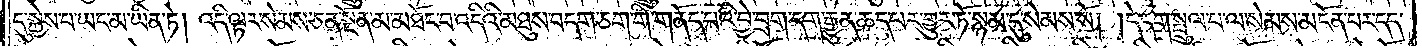དུ་སྐྱེས་པ་ཡང་མ་ཡིན་ཏེ། འདི་ལྟར་སེམས་ཅན་སྔོན་མ་མཐོང་བ་འདིའི་མཐུས་བདག་ཅག་གི་གནོད་པའི་བྱེ་བྲག་དག་རྒྱུན་ཆད་པར་གྱུར་ཏོ་སྙམ་དུ་སེམས་སོ། །དེ་དག་སྤྲུལ་པ་ལ་སེམས་མངོན་པར་དད་
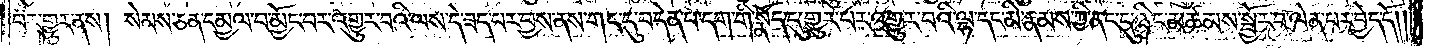པར་གྱུར་ནས། སེམས་ཅན་དམྱལ་བ་མྱོང་བར་འགྱུར་བའི་ལས་དེ་ཟད་པར་བྱས་ནས་གང་དུ་བདེན་པ་དག་གི་སྣོད་དུ་གྱུར་པར་འགྱུར་བའི་ལྷ་དང་མི་རྣམས་ཀྱི་ནང་དུ་ཉིང་མཚམས་སྦྱོར་བ་ལེན་པར་བྱེད་དོ༎
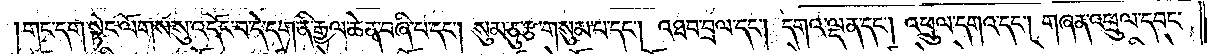གང་དག་སྟེང་ལོགས་སུ་འདོང་བ་དེ་དག་ནི་རྒྱལ་ཆེན་བཞི་པ་དང༌། སུམ་ཅུ་རྩ་གསུམ་པ་དང༌། འཐབ་བྲལ་དང༌། དགའ་ལྡན་དང༌། འཕྲུལ་དགའ་དང༌། གཞན་འཕྲུལ་དབང་
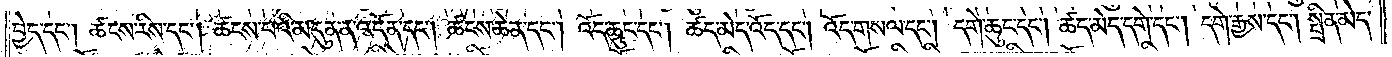བྱེད་དང༌། ཚངས་རིས་དང༌། ཚངས་པའི་མདུན་ན་འདོན་དང༌། ཚངས་ཆེན་དང༌། འོད་ཆུང་དང༌། ཚད་མེད་འོད་དང༌། འོད་གསལ་དང༌། དགེ་ཆུང་དང༌། ཚད་མེད་དགེ་དང༌། དགེ་རྒྱས་དང༌། སྤྲིན་མེད་
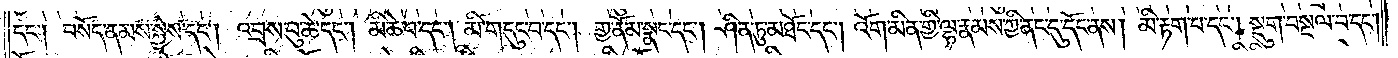དང༌། བསོད་ནམས་སྐྱེས་དང༌། འབྲས་བུ་ཆེ་དང༌། མི་ཆེ་བ་དང༌། མི་གདུང་བ་དང༌། གྱ་ནོམ་སྣང་དང༌། ཤིན་ཏུ་མཐོང་དང༌། འོག་མིན་གྱི་ལྷ་རྣམས་ཀྱི་ནང་དུ་དོང་ནས། མི་རྟག་པ་དང༌། སྡུག་བསྔལ་བ་དང༌།
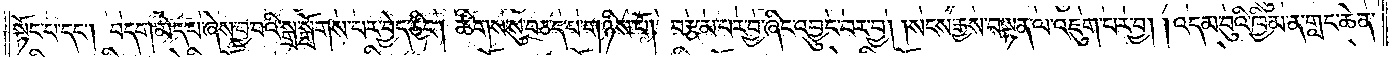སྟོང་པ་དང༌། བདག་མེད་པ་ཞེས་བྱ་བའི་སྒྲ་སྒྲོགས་པར་བྱེད་ཅིང༌། ཚིགས་སུ་བཅད་པ་གཉིས་པོ། བརྩམ་པར་བྱ་ཞིང་འབྱུང་བར་བྱ། །སངས་རྒྱས་བསྟན་ལ་འཇུག་པར་བྱ། །འདམ་བུའི་ཁྱིམ་ན་གླང་ཆེན་
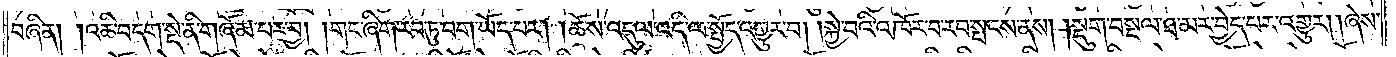བཞིན། །འཆི་བདག་སྡེ་ནི་གཞོམ་པར་བྱ། །གང་ཞིག་རབ་ཏུ་བག་ཡོད་པར། །ཆོས་འདུལ་འདི་ལ་སྤྱོད་འགྱུར་བ། །སྐྱེ་བའི་འཁོར་བ་རབ་སྤངས་ནས། །སྡུག་བསྔལ་ཐ་མར་བྱེད་པར་འགྱུར། །ཞེས་
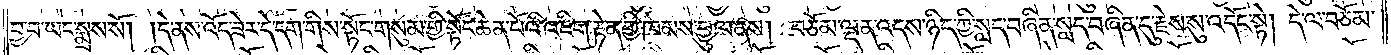བྱ་བ་ཡང་སྨྲས་སོ། །དེ་ནས་འོད་ཟེར་དེ་དག་གིས་སྟོང་གསུམ་གྱི་སྟོང་ཆེན་པོའི་འཇིག་རྟེན་གྱི་ཁམས་བྱུལ་ནས། བཅོམ་ལྡན་འདས་ཉིད་ཀྱི་སླད་བཞིན་སླད་བཞིན་དུ་རྗེས་སུ་འདོང་སྟེ། དེ་ལ་བཅོམ་
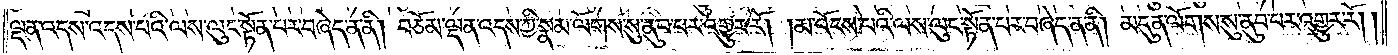ལྡན་འདས་འདས་པའི་ལས་ལུང་སྟོན་པར་བཞེད་ན་ནི། བཅོམ་ལྡན་འདས་ཀྱི་སྣམ་ལོགས་སུ་ནུབ་པར་འགྱུར་རོ། །མ་འོངས་པའི་ལས་ལུང་སྟོན་པར་བཞེད་ན་ནི། མདུན་ལོགས་སུ་ནུབ་པར་འགྱུར་རོ། །
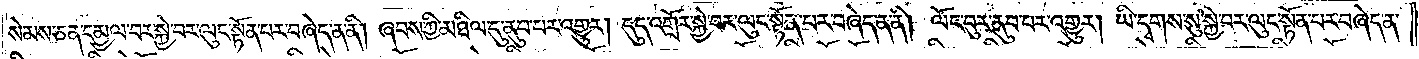སེམས་ཅན་དམྱལ་བར་སྐྱེ་བར་ལུང་སྟོན་པར་བཞེད་ན་ནི། ཞབས་ཀྱི་མཐིལ་དུ་ནུབ་པར་འགྱུར། དུད་འགྲོར་སྐྱེ་བར་ལུང་སྟོན་པར་བཞེད་ན་ནི། ལོང་བུར་ནུབ་པར་འགྱུར། ཡི་དྭགས་སུ་སྐྱེ་བར་ལུང་སྟོན་པར་བཞེད་ན་
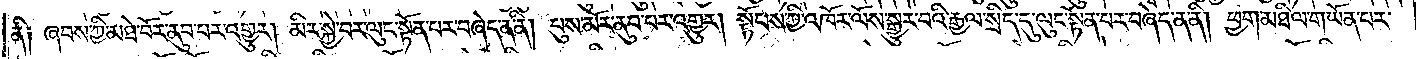ནི༑ ཞབས་ཀྱི་མཐེ་བོར་ནུབ་པར་འགྱུར། མིར་སྐྱེ་བར་ལུང་སྟོན་པར་བཞེད་ན་ནི། པུས་མོར་ནུབ་པར་འགྱུར། སྟོབས་ཀྱི་འཁོར་ལོས་སྒྱུར་བའི་རྒྱལ་སྲིད་དུ་ལུང་སྟོན་པར་བཞེད་ན་ནི། ཕྱག་མཐིལ་གཡོན་པར་
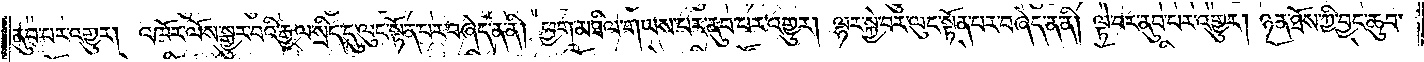ནུབ་པར་འགྱུར། འཁོར་ལོས་སྒྱུར་བའི་རྒྱལ་སྲིད་དུ་ལུང་སྟོན་པར་བཞེད་ན་ནི། ཕྱག་མཐིལ་གཡས་པར་ནུབ་པར་འགྱུར། ལྷར་སྐྱེ་བར་ལུང་སྟོན་པར་བཞེད་ན་ནི། ལྟེ་བར་ནུབ་པར་འགྱུར། ཉན་ཐོས་ཀྱི་བྱང་ཆུབ་
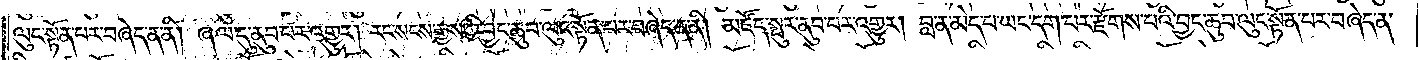ལུང་སྟོན་པར་བཞེད་ན་ནི། ཞལ་དུ་ནུབ་པར་འགྱུར། རང་སངས་རྒྱས་ཀྱི་བྱང་ཆུབ་ལུང་སྟོན་པར་བཞེད་ན་ནི། མཛོད་སྤུར་ནུབ་པར་འགྱུར། བླ་ན་མེད་པ་ཡང་དག་པར་རྫོགས་པའི་བྱང་ཆུབ་ལུང་སྟོན་པར་བཞེད་ན་
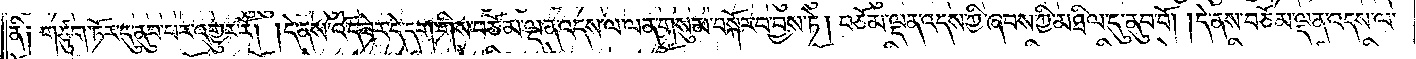ནི༑ གཙུག་ཏོར་དུ་ནུབ་པར་འགྱུར་རོ། །དེ་ནས་འོད་ཟེར་དེ་དག་གིས་བཅོམ་ལྡན་འདས་ལ་ལན་གསུམ་བསྐོར་བ་བྱས་ཏེ། བཅོམ་ལྡན་འདས་ཀྱི་ཞབས་ཀྱི་མཐིལ་དུ་ནུབ་བོ། །དེ་ནས་བཅོམ་ལྡན་འདས་ལ་
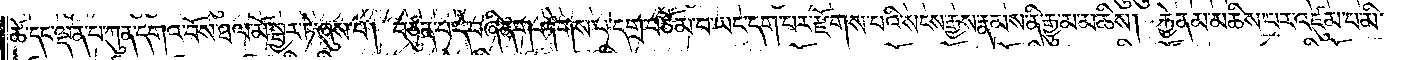ཚེ་དང་ལྡན་པ་ཀུན་དགའ་བོས་ཐལ་མོ་སྦྱར་ཏེ་ཞུས་པ། བཙུན་པ་དེ་བཞིན་གཤེགས་པ་དགྲ་བཅོམ་པ་ཡང་དག་པར་རྫོགས་པའི་སངས་རྒྱས་རྣམས་ནི་རྒྱུ་མ་མཆིས། རྐྱེན་མ་མཆིས་པར་འཛུམ་པ་མི་
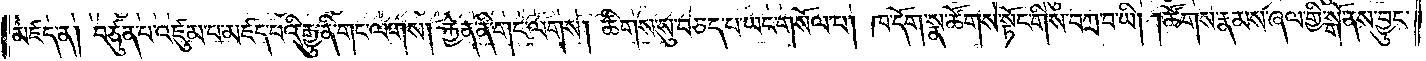མཛད་ན། བཙུན་པ་འཛུམ་པ་མཛད་པའི་རྒྱུ་ནི་གང་ལགས། རྐྱེན་ནི་གང་ལགས། ཚིགས་སུ་བཅད་པ་ཡང་གསོལ་པ། ཁ་དོག་སྣ་ཚོགས་སྟོང་གིས་བཀྲ་བ་ཡི། །ཚོགས་རྣམས་ཞལ་གྱི་སྒོ་ནས་བྱུང་
